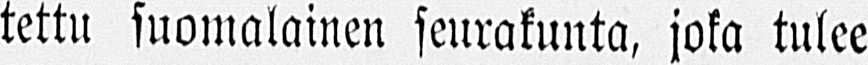tettu suomalainen seurakunta, joka tulee
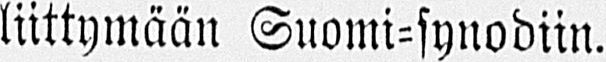liittymään Suomi-synodiin.
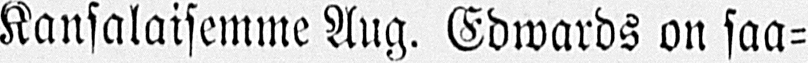Kansalaisemme Aug. Edwards on saa-
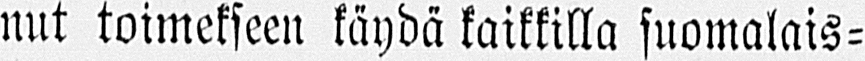nut toimekseen käydä kaikkilla suomalais-
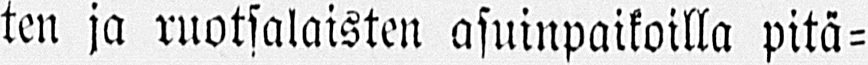ten ja ruotsalaisten asuinpaikoilla pitä-
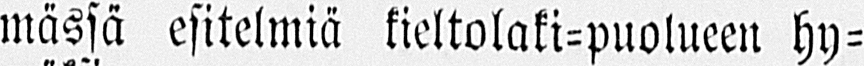mässä esitelmiä kieltolaki-puolueen hy-
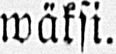wäksi.
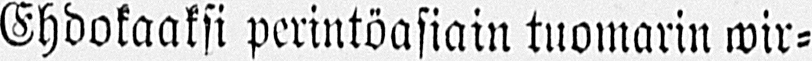Ehdokaaksi perintäasioin tuomarin wir-
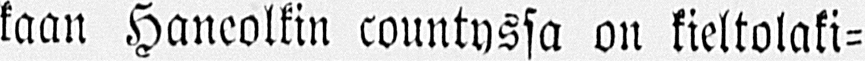kaan Haneolkin countyssa on kieltolaki-
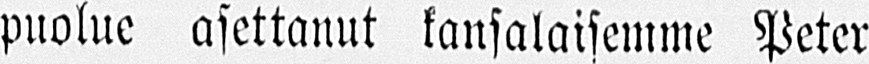puolue asettanut kansalaisemme Peter
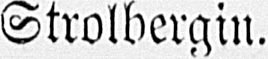Strolbergin.
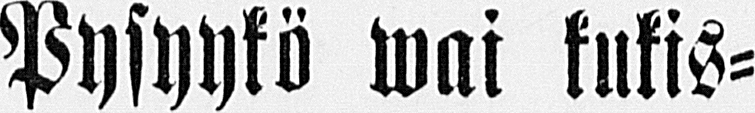Pysyykö wai kukis-
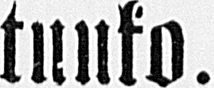tuulo.
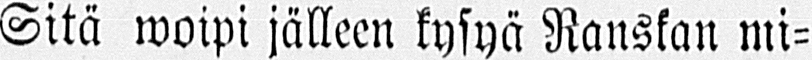Sitä woipi jälleen kysyä Ranskan mi-
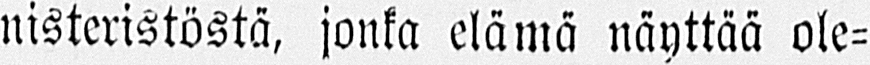nisteristöstä, jonka elämä näyttää ole-
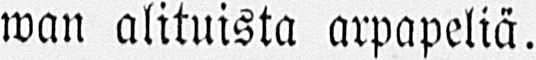wan alituista arpapeliä,
